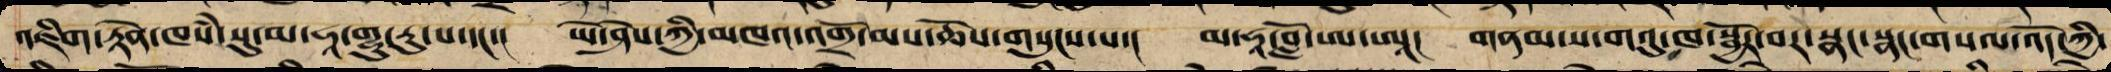འཇིག་རྟེན་ཁཾས་སུ་མ་ཧཱ་གུ་རུ་པ་དང་་། ཡེ་ཤེས་ཀྱི་མཁའ་འགྲོ་མས་ཆོས་གསུངས་པ་། མ་ཧཱ་བློ་ཨ་ཨཱ། གནམ་ས་གའུ་ཁ་སྦྱོར་བར་སྣང་སྣང་གསལ་འོད་ཀྱི་
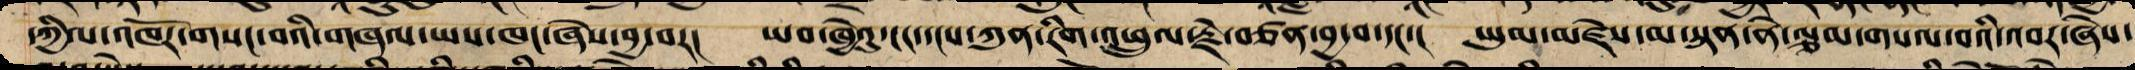དཀྱིལ་འཁོར་གསང་བའི་གཞལ་ཡས་ཁང་ཞེས་བྱ་བར་། ཡབ་ཁྱེའུ་ངང་དངས་ཀུན་རིག་འཕྲུལ་རྗེ་བཙན་བྱ་བ་དང་། ཡུམ་མཛེས་མ་སྟན་ནེ་ལྕམ་གསལ་བའི་འབར་ཞེས་
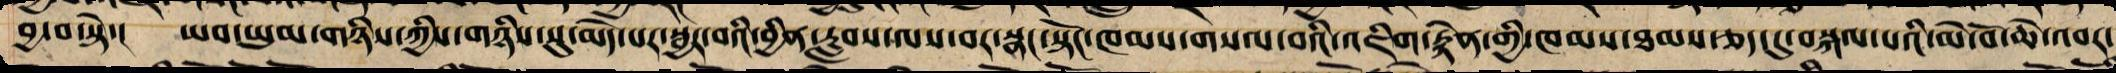བྱ་བ་སྟེ་། ཡབ་ཡུམ་གཉིས་ཀྱིས་གཉིས་སུ་མེད་པར་སྦྱར་བའི་བྱིན་རླབས་ལས་བར་སྣང་སྟོང་ཁམས་གསལ་བའི་འཇིག་རྟེན་གྱི་ཁམས་ཐམས་ཅད་དུ་བསྐལ་པའི་མེ་བོ་ཆེ་འབར་
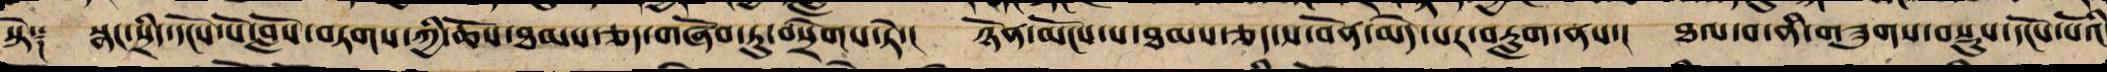སྟེ༑ སྣང་སྲིད་དངོས་པོ་བློས་བརྟགས་ཀྱི་ཆོས་ཐམས་ཅད་གཞོབ་ཏུ་བསྲེགས་ཏེ་། ཉོན་མོངས་པ་ཐམས་ཅད་ས་བོན་མེད་པར་བརླག་ནས་། ཐལ་བ་ནི་གཟུགས་བསྡུས་དངོས་པོའི
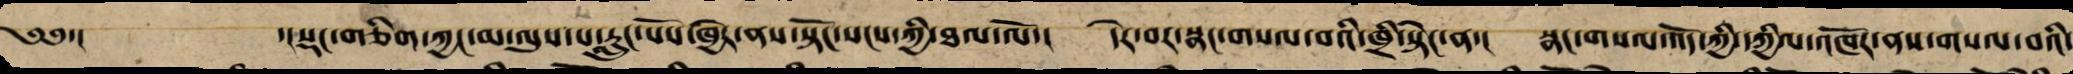༄༅་།  ་།སྡང་གཅིག་ཀྱང་མ་ལུས་པ་རླུང་པོས་ཁྱེར་ནས་སྟོང་སངས་ཀྱིས་ཐལ་ལོ་། དེར་བར་སྣང་གསལ་བའི་ཁྲི་སྟེང་ན་། སྣང་གསལ་འོད་ཀྱི་དཀྱིལ་འཁོར་ནས་གསལ་བའི་
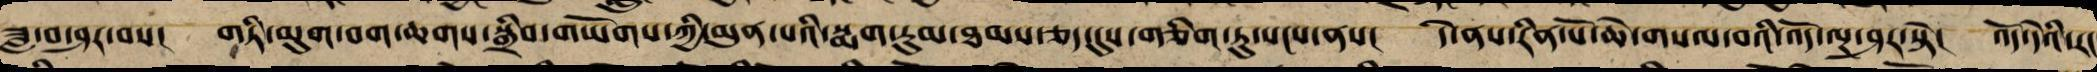ཟླ་བ་ཤར་བས་། གཏི་མུག་བག་ཆགས་སྒྲིབ་གཡོགས་ཀྱི་མུན་པའི་སྨག་རུམ་ཐམས་ཅད་དུས་གཅིག་ཏུ་སངས་ནས་། དེ་ནས་རིན་པོ་ཆེ་གསལ་བའི་འོད་ལྔ་ཤར་ཏེ་། འོད་དེའི་རང
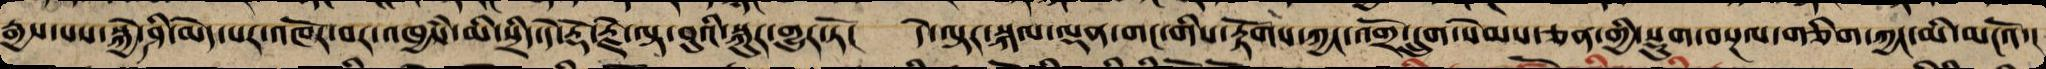རྒྱས་པས་སྐྱེ་ཤི་མེད་པར་འཁོར་བར་འཁྱཾས་མི་སྲིད་དེ་རྡོ་རྗེ་ལྟ་བུའི་སྐུར་གྱུར་ཏོ་། དེ་ལྟར་སྐལ་ལྡན་གང་གིས་རྟོགས་ཀྱང་འགྲོ་དྲུག་སེམས་ཅན་གྱི་སྡུག་བསྔལ་གཅིག་ཀྱང་མི་མངའོ་།
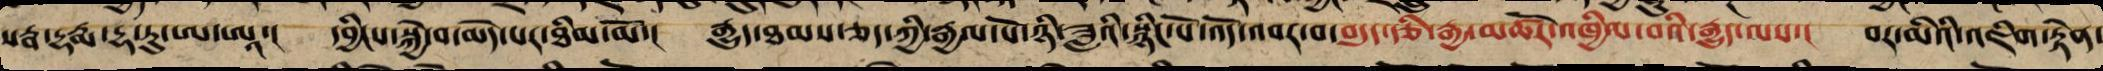སརྦ་དྷརྨ་དྷཱ་ཏུ་ཨ་ཨཱ་། དབྱིངས་སྐྱེ་བ་མེད་པར་ཐིམ་མོ་། རྒྱུད་ཐམས་ཅད་ཀྱི་རྒྱལ་པོ་ཉི་ཟླའི་སྙིང་པོ་འོད་འབར་བ་བདུད་རྩི་རྒྱ་མཚོ་འཁྱིལ་པའི་རྒྱུད་ལས་། བར་མིའི་འཇིག་རྟེན་
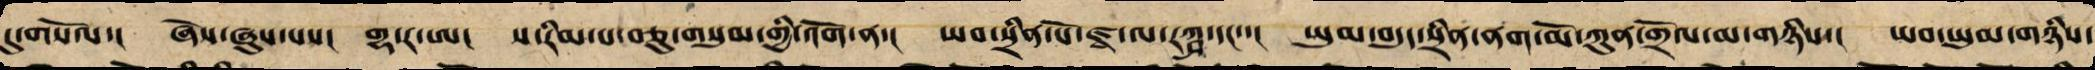དུ་གསོལ་། ཞེས་ཞུས་པས་། གྷ་ར་ཨ། ས་རིམ་པ་བཅུ་གསུམ་གྱི་འོག་ན་། ཡབ་སྲིན་པོ་ཛྭ་ལ་རཀྴ་དང་་། ཡུམ་བདུད་སྲིན་ནག་མོ་ཀུན་གྲོལ་མ་གཉིས་། ཡབ་ཡུམ་གཉིས་
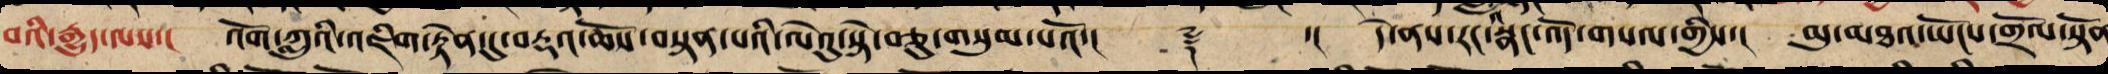པའི་རྒྱུད་ལས་། འོག་ཀླུའི་འཇིག་རྟེན་དུ་བརྡའ་ཆོས་བསྟན་པའི་ལེའུ་སྟེ་བཅུ་གསུམ་པའོ་།། ༈  ་།། དེ་ནས་རང་སྣང་འོད་གསལ་གྱིས་། མུ་མཐའ་ཡོངས་གྲོལ་སྟོན
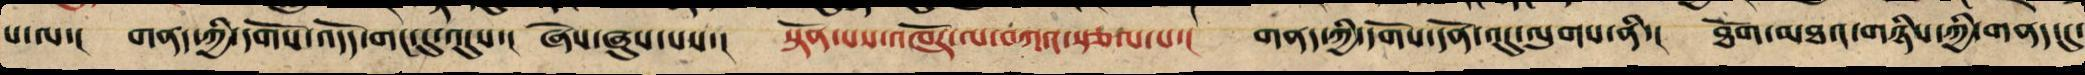པ་ལ་། གནད་ཀྱི་དགོས་དོན་གང་དུ་འདུས་། ཞེས་ཞུས་པས་། སྟོན་པས་འཁོར་ལ་བཀའ་སྩལ་པ་། གནད་ཀྱི་དགོས་དོན་འདུ་ལུགས་ནི་། ཐོག་མཐའ་གཉིས་ཀྱི་གནད་དུ་
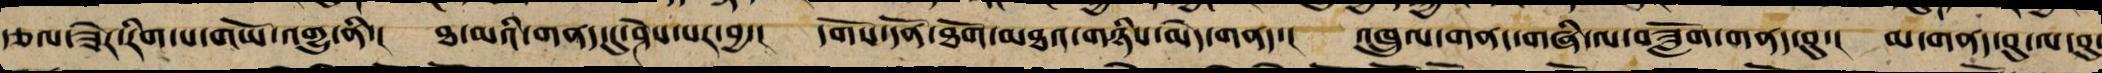རྩལ་ཟེར་རིག་པ་གཡོ་འགྱུ་ནི་། ཐ་མའི་གནད་དུ་ཤེས་པ་བྱ་། དགོས་དོན་ཐོག་མཐའ་གཉིས་མེད་གནད་། འཁྲུལ་གནད་གཞི་ལ་བཟློག་གནད་བུ་། མ་གནད་བུ་ལ་བུ་
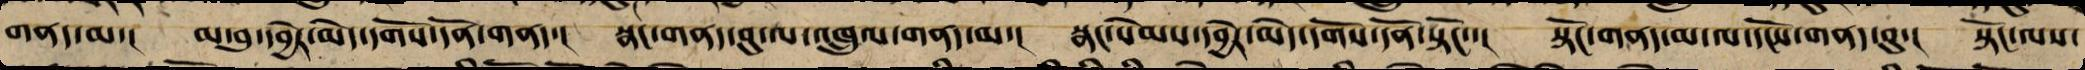གནད་མ་། མ་བུ་དབྱེར་མེད་དགོས་དོན་གནད་། སྣང་གནད་བུ་ལ་འཁྲུལ་གནད་མ་། སྣང་སེམས་དབྱེར་མེད་དགོས་དོན་སྟོང་་། སྟོང་གནད་མ་ལ་དངོས་གནད་བུ་། སྟོང་ལས་
